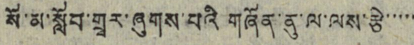སོ་མ་སློབ་གྲྭར་ཞུགས་པའི གཞོན་ནུ་ལ་ལས་རྩེ་་་་་
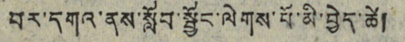བར་དགའ་ནས་སློབ་སྦྱོང་ལེགས་པོ་མི་བྱེད་ཚེ།
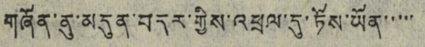གཞོན་ནུ་མདུན་བདར་གྱིས་འཕྲལ་དུ་ཏོས་ཡོན་་་་་
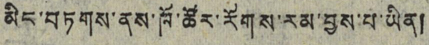མིང་བཏགས་ནས་ཁོ་ཚོར་རོགས་རམ་བྱས་པ་ཡིན།
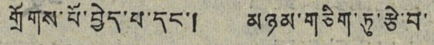གྲོགས་པོ་བྱེད་པ་དང་། མཉམ་གཅིག་ཏུ་རྩེ་བ་
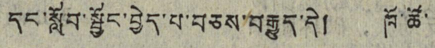དང་སློབ་སྦྱོང་བྱེད་པ་བཅས་བརྒྱུད་དེ། ཁོ་ཚོ་
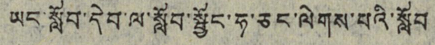ཡང་སློབ་དེབ་ལ་སློབ་སྦྱོང་ཧ་ཅང་ལེགས་པའི་སློབ་
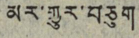མར་གྱུར་བཅུག
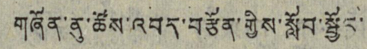གཞོན་ནུ་ཚོས་འབད་བརྩོན་གྱིས་སློབ་སྦྱོང་
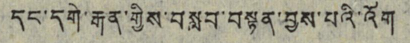དང་དགེ་རྒན་གྱིས་བསླབ་བསྟན་བྱས་པའི་འོག
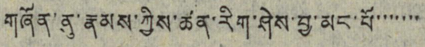གཞོན་ནུ་རྣམས་ཀྱིས་ཚན་རིག་ཤེས་བྱ་མང་པོ་་་་་་་་
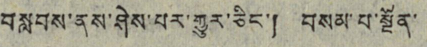བསླབས་ནས་ཤེས་པར་གྱུར་ཅིང་། བསམ་པ་སྔོན་
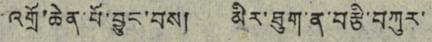འགྲོ་ཆེན་པོ་བྱུང་བས། མིར་ཐུག་ན་བརྩི་བཀུར་
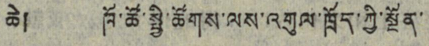ཆེ། ཁོ་ཚོ་སྤྱི་ཚོགས་ལས་འགུལ་ཁྲོད་ཀྱི་སྔོན་
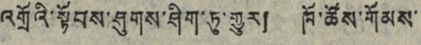འགྲོའི་སྟོབས་ཤུགས་ཤིག་ཏུ་གྱུར། ཁོ་ཚོས་གོམས་
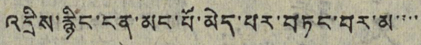འདྲིས་རྙིང་ངོན་མང་པོ་མེད་པར་བཏང་བར་མ་་་་
